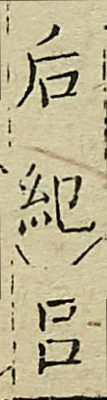后紀呂
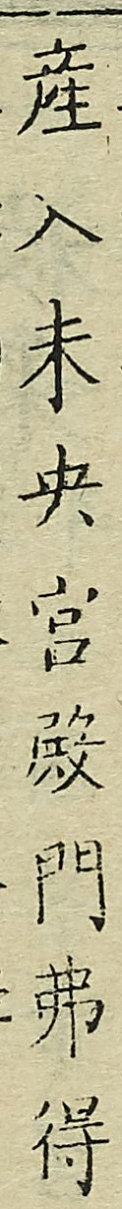產入未央宮殿門弗得
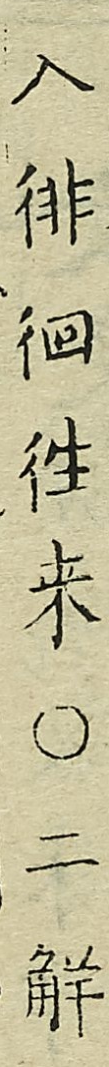入徘徊來。二解
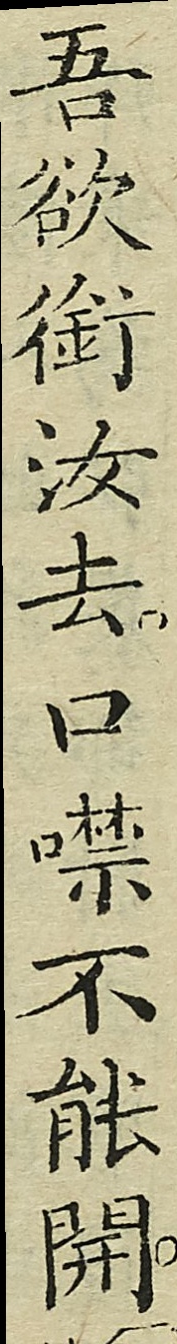吾欲銜汝去口噤不能開
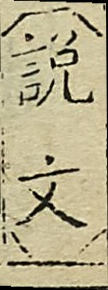（說文）
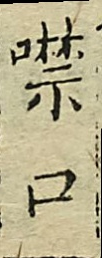噤口
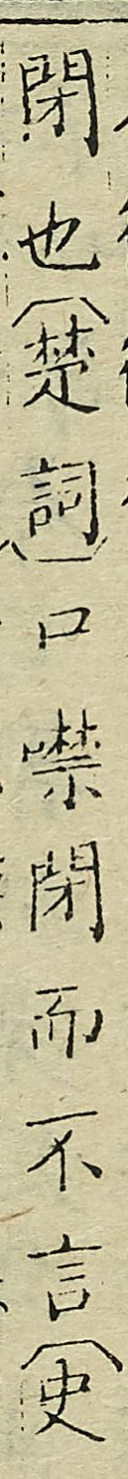閉也（楚詞）口噤閉而不言（史
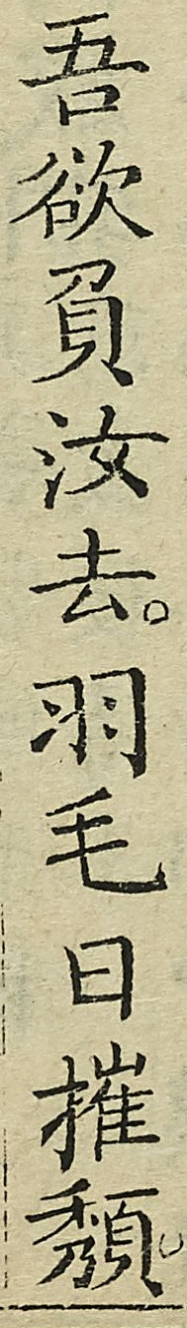吾欲負汝去羽毛日摧頹
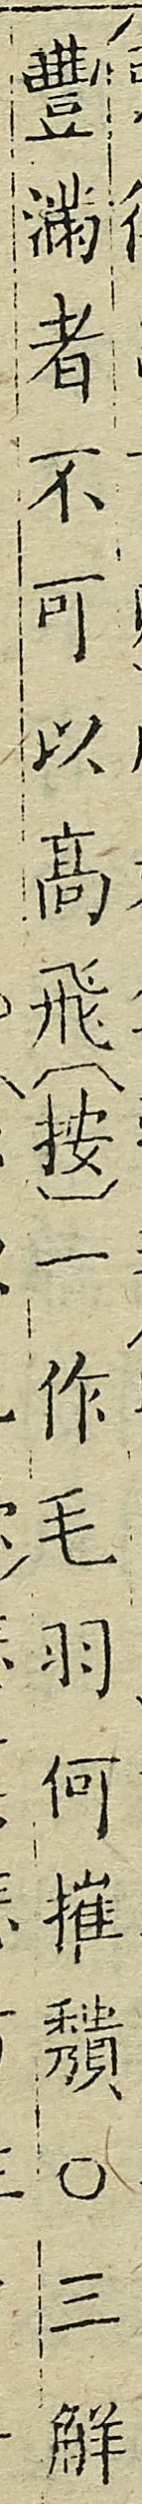豐滿者不可以高飛（按）一作毛羽何摧頹
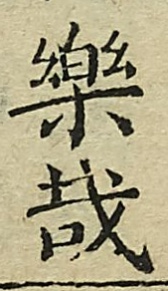樂哉
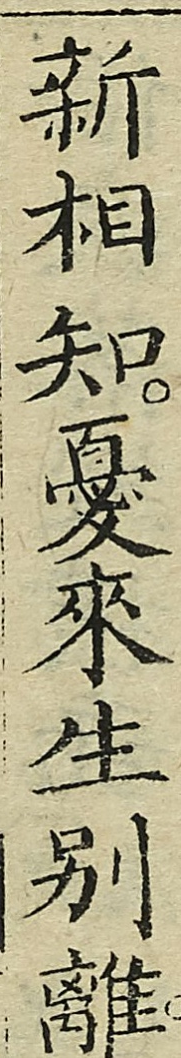新相知憂來生別離
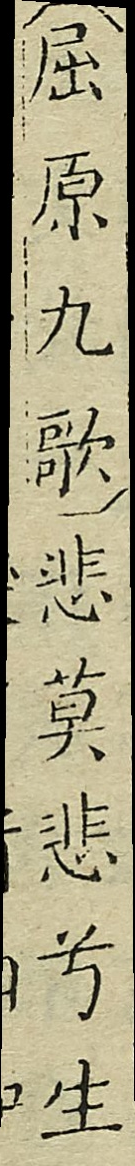（屈原九歌）悲莫悲兮生
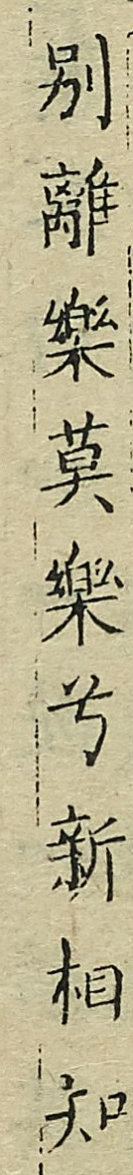別離樂莫樂兮新相知
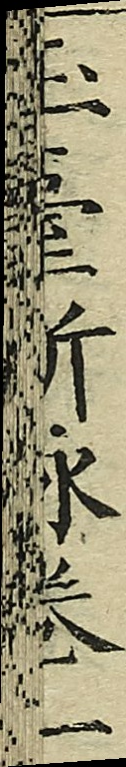玉臺新詠卷一
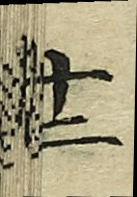十二
